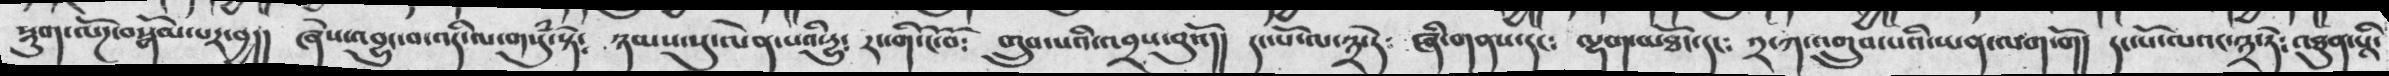སྡུག་ལོཌ་བསྒོམ་པར་བྱ།།  ཞེས་འབྱུང་བ་འདི་ལ་གསུཾ་སྟེ༴  ཉམས་སུ་ལེན་པའི་དྱུ༴   རང་གི་ངོ་བོ༴   གྲུབ་པའི་འབྲས་བུའོ།  དང་པོ་ལ་༣་དེ༴  ཞི་གནས་དང༴  ལྷག་མཐོང་དང༴  ༢་ཀ་འགྲུབ་པའི་ཡན་ལག་གོ།  དང་པོ་ལའང་༣་ཏེ༴  འཐུན་པའི་
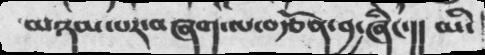མཉམ་པར་བཞག་པ་བརྩོན་བྱ་ཞིང་།། མི་
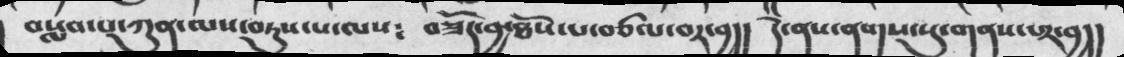བསླབ་པ་ཀུན་ལས་བཏུས་པ་ལས༴ བཟོད་བྱ་ཐོས་པ་བཙལ་བར་བྱ།། དེ་ནས་ནགས་སུ་གནས་པར་བྱ།།
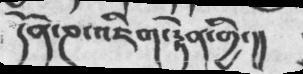དོན་ཎ་འཇིག་རྟེན་གྱི་།།
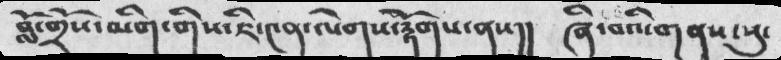བློ་གྲོས་མིག་གིས་ཇི་༤ན་ལེགས་རྟོགས་ནས།། ཞི་བ་གནས་སུ་
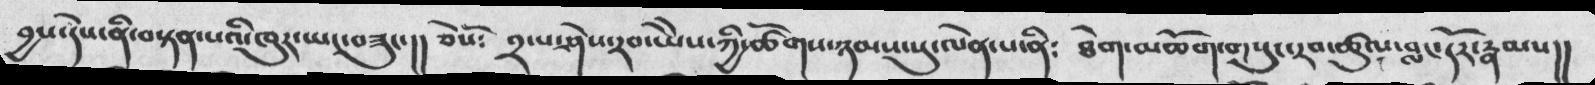བྱས་དེས་ནི་བསྟན་པའི་ཁུར་ཡང་བཟུང་།། ཅེསོ༴ ༢་པ་ཤེས་རབ་ཡཻས་ཀྱི་ཚོགས་ཉམས་སུ་ལེན་པ་ནི༴ ཐེག་མཆོག་གསུང་རབ་ཚུལ་བླང་དོར་རྣམས།།
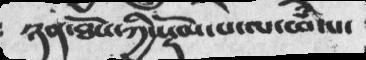ཉན་ཐོས་ཀྱི་སྡོམ་པ་ལ་ཕཾ་པ་
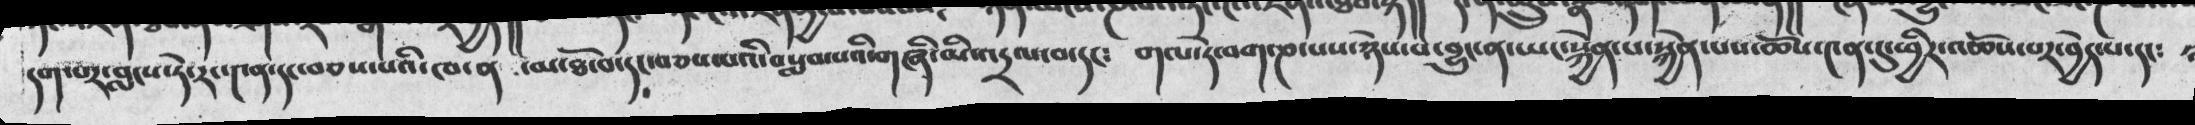དག་པར་བླངས་ཏེ་རང་༤ན་དང་བཅས་པའི་ཁ་ན་  མ་ཐོ་བ་དང་་བཅས་པའི་བསླབ་པའི་གཞི་མ་འདྲལ་བ་དང༴  གལ་ཏེ་བག་ཎ་པས་ཉེས་པ་བྱུང་ན་སྐྱེན་པས་ཆོས་༤ན་དུ་ཕྱིར་འཆོས་པར་བྱེད་པ་དང༴
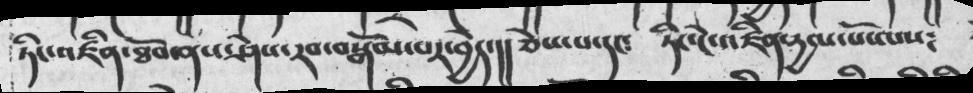ཏིང་འཛིན་ཐོབ་ནས་ཤེས་རབ་བསྒོམ་པར་བྱེད་།། ཅེས་པ་དང༴  ཏིང་ངེ་འཛིན་དྱལ་པོ་ལས༴
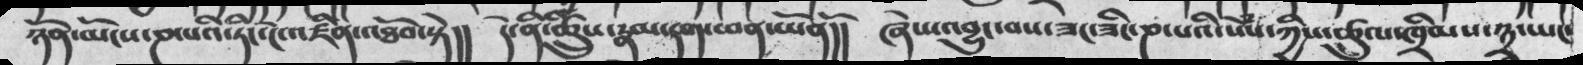ཉོན་མོངས་ཎ་པའི་ཏིང་ངེ་འཛིན་འཐོབ་སྟེ།། དེ་ནི་ཚྲིུཾས་རྣམ་དག་ཕན་ཡོནོ།། ཞེས་འབྱུང་བས་ཟང་ཟིང་ཎ་པའི་སེཾས་ཀྱིས་ཚུལ་ཁྲིམས་༣་ཡང་
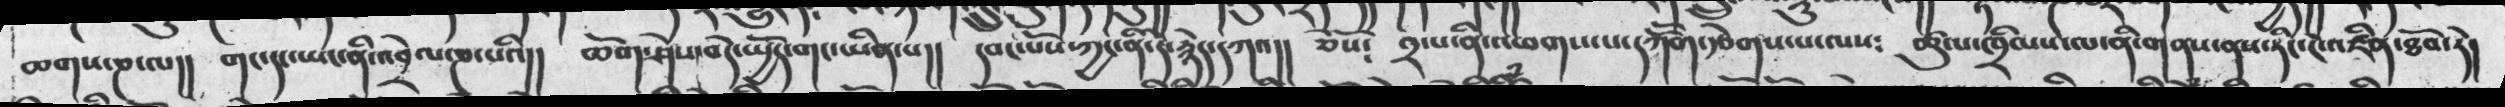ཆགས་ཎ་ལ།།  གང་དང་ཡང་ནི་འབྲེལ་ཎ་པའི།།  ཆོག་ཤེས་བདེ་སྤྱོད་གང་ཡིན་པ།།  དབང་པོས་ཀྱང་ནི་དེ་རྙེད་དཀའ།།   ཅེསོ༴  ༢་པ་ནི་འཕགས་པ་དཀོོག་རྩེགས་པ་ལས༴  ཚུལ་ཁྲིམས་ལ་ནི་གནས་ནས་ཏིང་ངེ་འཛིན་ཐོབ་རེ།
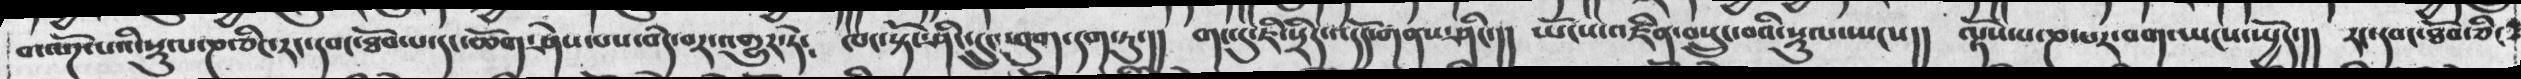བ་ལོཌ་པའི་སྡུལ་ཎ་ཅིང་རང་དབང་ཐོབ་པ་དང་ཆོག་ཤེས་པས་བདེ་བར་འགྱུར་ཏེ༴  ཁང་སྟོང་ཤིང་དྲུང་ཕུག་དག་ཏུ་།།  གང་དུ་ཇི་སྲིད་འདོད་གནས་ཤིང་།།  ཡོངས་འཛིན་བསྲུང་བའི་སྡུལ་ཡངས།། ལྟོས་པ་ཎ་པར་བག་ཡངས་སྤྱོད་།། རང་དབང་ཐོབ་ཅིང
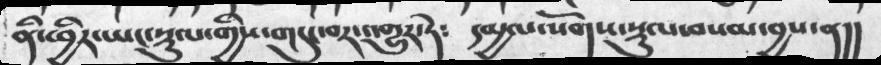ནི་ཕྱིར་ཡང་སྡུལ་གྱིས་གདུང་བར་འགྱུར་ཏེ༴ དམྱལ་སོགས་སྡུལ་བསམ་བྱས་ན།།
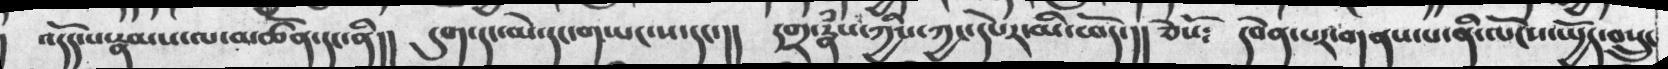འདོད་པ་རྣམས་ལ་མཚོན་དང་ནི།། དུག་དང་མེ་དང་གཡང་ས་དང་།། དགྲ་རྣཾས་ཀྱིས་ཀྱང་དཔེར་མི་ཕོད་།། ཅེསོ༴  དབེན་པར་གནས་པ་ནི་ལོངས་སྤྱོད་བསྲུང
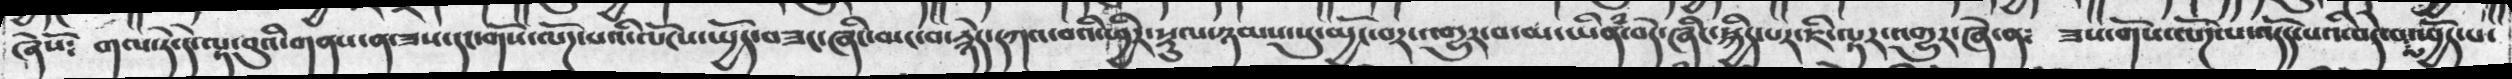ཞེསོ༴  གལ་ཏེ་དེ་ལྟ་བུའི་གནས་ན་ཟས་དང་གོས་ལོཌ་པའི་ལོངས་སྤྱོད་བཟང་ཞིང་མང་བ་རྙེད་དཀའ་བའི་ཕྱིར་སྡུལ་ཉམས་སུ་མྱོང་བར་འགྱུར་བ་མ་ཡིནཾ་བདེ་ཞིང་སྐྱིད་པར་ཇི་ལྟར་འགྱུར་ཞེ་ན༴   ཟས་གོས་ལོཌ་པ་འདོད་པའི་བདེ་བ་ལ་སྤྱོད་པ་
